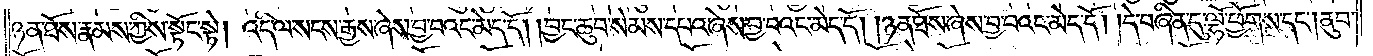ཉན་ཐོས་རྣམས་ཀྱིས་སྟོང་སྟེ། འདི་ལ་སངས་རྒྱས་ཞེས་བྱ་བ་འང་མེད་དོ། །བྱང་ཆུབ་སེམས་དཔའ་ཞེས་བྱ་བའང་མེད་དོ། །ཉན་ཐོས་ཞེས་བྱ་བའང་མེད་དོ། །དེ་བཞིན་དུ་ལྷོ་ཕྱོགས་དང༌། ནུབ་
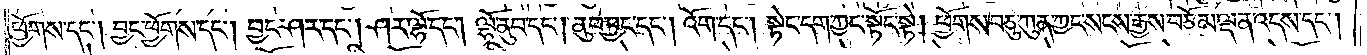ཕྱོགས་དང༌། བྱང་ཕྱོགས་དང༌། བྱང་ཤར་དང༌། ཤར་ལྷོ་དང༌། ལྷོ་ནུབ་དང༌། ནུབ་བྱང་དང༌། འོག་དང༌། སྟེང་དག་ཀྱང་སྟོང་སྟེ། ཕྱོགས་བཅུ་ཀུན་ཀྱང་སངས་རྒྱས་བཅོམ་ལྡན་འདས་དང༌།
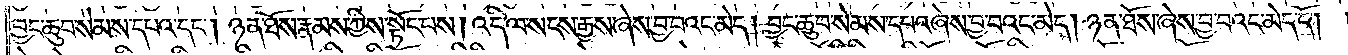བྱང་ཆུབ་སེམས་དཔའ་དང༌། ཉན་ཐོས་རྣམས་ཀྱིས་སྟོང་པས། འདི་ལ་སངས་རྒྱས་ཞེས་བྱ་བའང་མེད། བྱང་ཆུབ་སེམས་དཔའ་ཞེས་བྱ་བའང་མེད། ཉན་ཐོས་ཞེས་བྱ་བའང་མེད་དོ། །
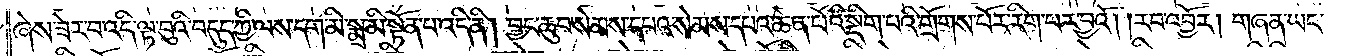ཞེས་ཟེར་བ་འདི་ལྟ་བུའི་བདུད་ཀྱི་ལས་དག་མི་སྨྲ་མི་སྟོན་པ་འདི་ནི། བྱང་ཆུབ་སེམས་དཔའ་སེམས་དཔའ་ཆེན་པོའི་སྡིག་པའི་གྲོགས་པོར་རིག་པར་བྱའོ། །རབ་འབྱོར། གཞན་ཡང་
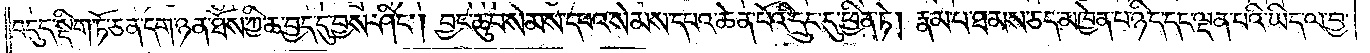བདུད་སྡིག་ཏོ་ཅན་དག་ཉན་ཐོས་ཀྱི་ཆ་བྱད་དུ་བྱས་ཤིང༌། བྱང་ཆུབ་སེམས་དཔའ་སེམས་དཔའ་ཆེན་པོའི་དྲུང་དུ་ཕྱིན་ཏེ། རྣམ་པ་ཐམས་ཅད་མཁྱེན་པ་ཉིད་དང་ལྡན་པའི་ཡིད་ལ་བྱ་
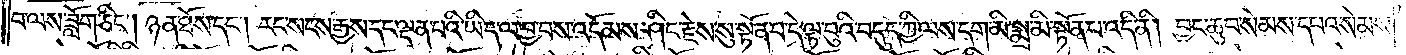བ་ལས་ཟློག་ཅིང༌། ཉན་ཐོས་དང༌། རང་སངས་རྒྱས་དང་ལྡན་པའི་ཡིད་ལ་བྱ་བས་འདོམས་ཤིང་རྗེས་སུ་སྟོན་པ་དེ་ལྟ་བུའི་བདུད་ཀྱི་ལས་དག་མི་སྨྲ་མི་སྟོན་པ་འདི་ནི། བྱང་ཆུབ་སེམས་
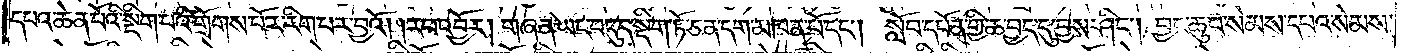དཔའ་སེམས་དཔའ་ཆེན་པོའི་སྡིག་པའི་གྲོགས་པོར་རིག་པར་བྱའོ། །རབ་འབྱོར། གཞན་ཡང་བདུད་སྡིག་ཏོ་ཅན་དག་མཁན་པོ་དང༌། སློབ་དཔོན་གྱི་ཆ་བྱད་དུ་བྱས་ཤིང༌། བྱང་ཆུབ་སེམས་དཔའ་སེམས་
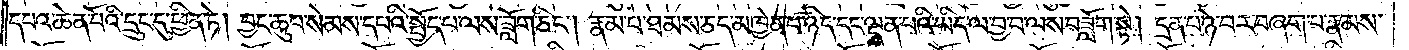དཔའ་ཆེན་པོའི་དྲུང་དུ་ཕྱིན་ཏེ། བྱང་ཆུབ་སེམས་དཔའི་སྤྱོད་པ་ལས་ཟློག་ཅིང༌། རྣམས་ཐམས་ཅད་མཁྱེན་པ་ཉིད་དང་ལྡན་པའི་ཡིད་ལ་བྱ་བ་ལས་བཟློག་སྟེ། དྲན་པ་ཉེ་བར་བཞག་པ་རྣམས་
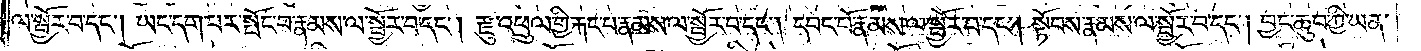ལ་སྦྱོར་བ་དང༌། ཡང་དག་པར་སྤོང་བ་རྣམས་ལ་སྦྱོར་བ་དང༌། རྫུ་འཕྲུལ་གྱི་རྐང་པ་རྣམས་ལ་སྦྱོར་བ་དང༌། དབང་པོ་རྣམས་ལ་སྦྱོར་བ་དང༌། སྟོབས་རྣམས་ལ་སྦྱོར་བ་དང༌། བྱང་ཆུབ་ཀྱི་ཡན་
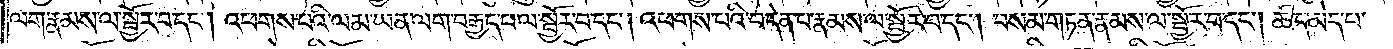ལག་རྣམས་ལ་སྦྱོར་བ་དང༌། འཕགས་པའི་ལམ་ཡན་ལག་བརྒྱད་པ་ལ་སྦྱོར་བ་དང༌། འཕགས་པའི་བདེན་པ་རྣམས་ལ་སྦྱོར་བ་དང༌། བསམ་གཏན་རྣམས་ལ་སྦྱོར་བ་དང༌། ཚད་མེད་པ་
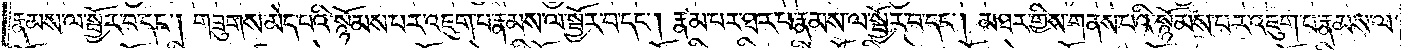རྣམས་ལ་སྦྱོར་བ་དང༌། གཟུགས་མེད་པའི་སྙོམས་པར་འཇུག་པ་རྣམས་ལ་སྦྱོར་བ་དང༌། རྣམ་པར་ཐར་པ་རྣམས་ལ་སྦྱོར་བ་དང༌། མཐར་གྱིས་གནས་པའི་སྙོམས་པར་འཇུག་པ་རྣམས་ལ་
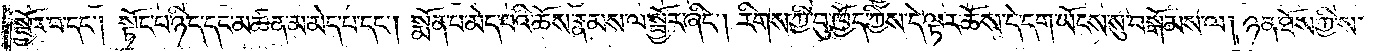སྦྱོར་བ་དང༌། །སྟོང་པ་ཉིད་དང་མཚན་མ་མེད་པ་དང༌། སྨོན་པ་མེད་པའི་ཆོས་རྣམས་ལ་སྦྱོར་ཞིང༌། རིགས་ཀྱི་བུ་ཁྱོད་ཀྱིས་དེ་ལྟར་ཆོས་དེ་དག་ཡོངས་སུ་བསྒོམས་ལ། ཉན་ཐོས་ཀྱི་ས་
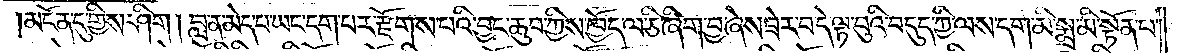མངོན་དུ་གྱིས་ཤིག །བླ་ན་མེད་པ་ཡང་དག་པར་རྫོགས་པའི་བྱང་ཆུབ་ཀྱིས་ཁྱོད་ལ་ཅི་ཞིག་བྱ་ཞེས་ཟེར་བ་དེ་ལྟ་བུའི་བདུད་ཀྱི་ལས་དག་མི་སྨྲ་མི་སྟོན་པ་
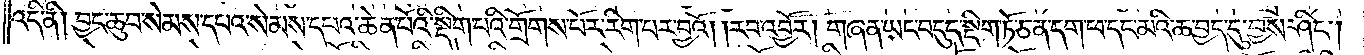འདི་ནི། བྱང་ཆུབ་སེམས་དཔའ་སེམས་དཔའ་ཆེན་པོའི་སྡིག་པའི་གྲོགས་པོར་རིག་པར་བྱའོ། །རབ་འབྱོར། གཞན་ཡང་བདུད་སྡིག་ཏོ་ཅན་དག་ཕ་དང་མའི་ཆ་བྱད་དུ་བྱས་ཤིང༌།
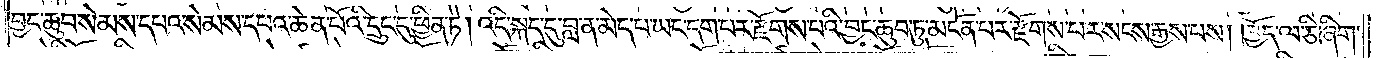བྱང་ཆུབ་སེམས་དཔའ་སེམས་དཔའ་ཆེན་པོའི་དྲུང་དུ་ཕྱིན་ཏེ། འདི་སྐད་དུ་བླ་ན་མེད་པ་ཡང་དག་པར་རྫོགས་པའི་བྱང་ཆུབ་ཏུ་མངོན་པར་རྫོགས་པར་སངས་རྒྱས་པས། ཁྱོད་ལ་ཅི་ཞིག་
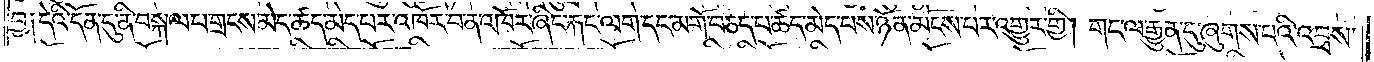བྱ། དེའི་དོན་དུ་ནི་བསྐལ་བ་གྲངས་མེད་ཚད་མེད་པར་འཁོར་བ་ན་འཁོར་ཞིང་རྐང་ལག་དང་མགོ་བཅད་པ་ཚད་མེད་པས་ཉོན་མོངས་པར་འགྱུར་གྱི། གང་ལ་རྒྱུན་དུ་ཞུགས་པའི་འབྲས་
